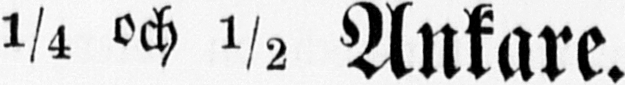1/4 och 1/2 Ankare.
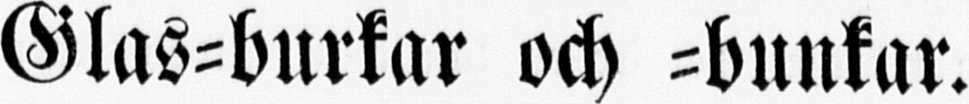Glas-burkar och -bunkar.
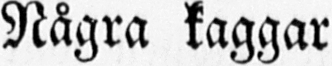Några kaggar
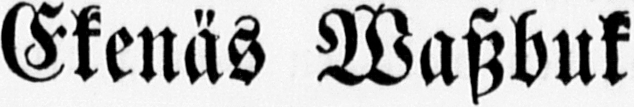Ekenäs Waszbuk
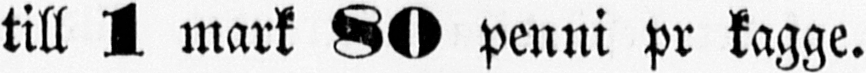till 1 mark 80 Penni pr kagge.
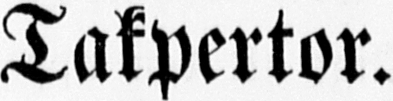Takpertor.
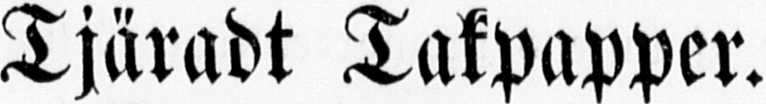Tjäradt Takpapper.
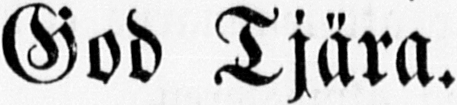God Tjära.
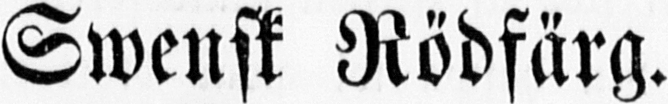Swensk Rödfärg.
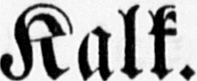Kalk.
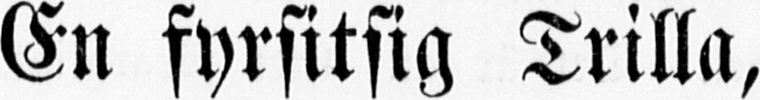En fyrsitsig Trilla,
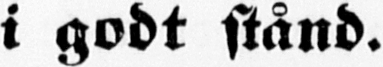i godt stånd.
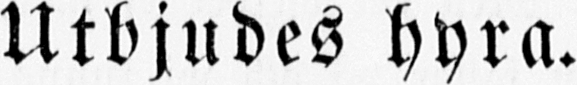Utbjudes hyra.
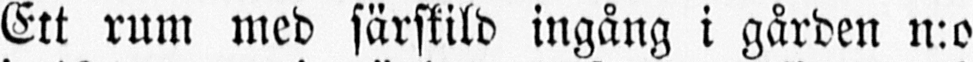Ett rum med särskild ingång i gården n:o
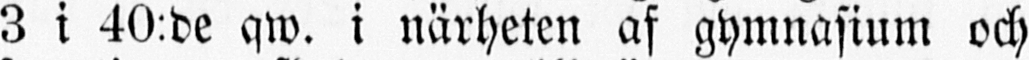3 i 40:de qw. i närheten af gymnasium och
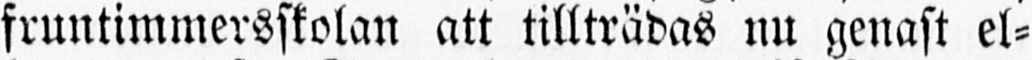fruntimmersskolan att tillträdas nu genast el-
